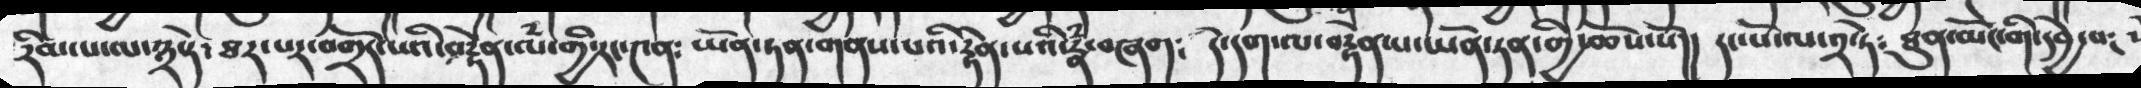རིམ་པ་ལ་༣་དེ་ཐར་པར་བགྲོད་པའི་བརྟེན་ལཾ་གྱི་རང་༤ན༴ ཡོན་ཏན་གནས་པའི་རྟེན་པའི་རྣཾ་བཞག༴  དེ་དག་ལ་བརྟེན་པ་ཡོན་ཏན་གྱི་ཆོས་སོ།།  དང་པོ་ལ་༢་ཏེ༴ ཐུན་མོང་གི་དབྱེ་བ༴
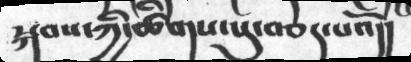སྐབས་ཀྱི་ཚིགས་སུ་བཅད་པའོ།།
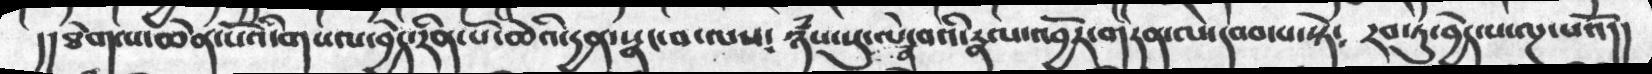།།  ཐེག་པ་ཆེན་པོའི་གསལ་བྱེད་རིན་པོ་ཆེའི་དྱན་སྣང་བ་ལས༴  ཉཾས་སུ་ལེན་བའི་རྣལ་འབྱོར་གཏན་ལ་དབབ་པ་སྟེ༴  རབ་ཏུ་བྱེད་པ་ལྔ་པའོ།།
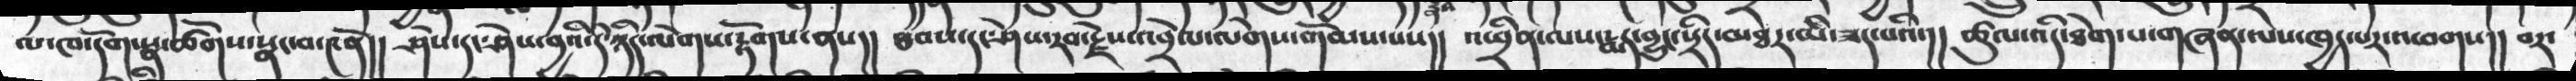ལ་ཁ་དོག་སྣ་ཚོགས་སྣང་བ་༤ནོ།།  ཤེས་དང་ཤེས་བྱའི་དེ་ཉིད་ལེགས་རྟོགས་ནས།།  ཐབས་དང་ཤེས་རབ་རྗེས་འབྲེལ་ལེགས་གོམས་པས།།  འཕྲིན་ལས་རྨད་བྱུང་སྲིད་མཐར་མི་ཟད་པའི་།།  ཚུལ་འདི་ཐེག་པ་གཞན་ལས་ཁྱད་པར་འཕགས།།  བར་
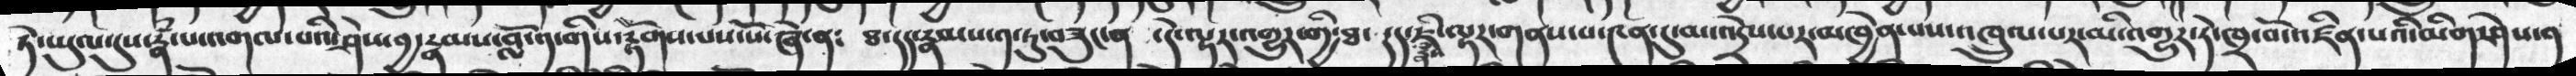ཏེ་ཡུལ་དུས་རྣཾ་པ་འགལ་པའི་ཤེས་བྱ་རྣམས་བློ་༡་གིས་རྟོགས་པས་སོ་ཞེ་ན༴  ཐ་དད་རྣམས་༡་ཏུ་བཟུང་ན ་དེ་ལྟར་འགྱུར་གྱི་ཐ་སྙད་རྣམས་ཇི་ལྟར་གནས་པ་༤ན་དུ་མ་འདྲེས་པར་མཁྱེན་པས་འཁྲུལ་པར་མི་འགྱུར་ཏེ་ཁྲ་བོ་འཛིན་པའི་མིག་ཤེས་ན
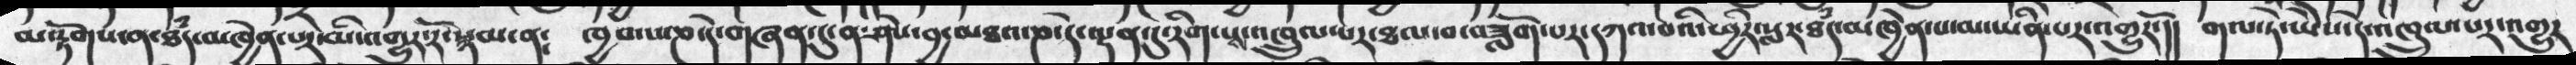མ་རྟོགས་ན་ཐཾད་མཁྱེན་པར་མི་འགྱུར་རོ་སྙམ་ན༴  ཁྱབ་པ་ཎ་དེ་གཞན་དུ་ནི་ཤེས་བྱ་མཐའ་ཎ་དེ་ལྡན་དུ་རིག་པས་འཁྲུལ་པར་ཐལ་བ་བཟླག་པར་དཀའ་བའི་ཕྱིར་སླར་ཐཾད་མཁྱེན་པ་མ་ཡིན་པར་འགྱུརོ་།།  གལ་ཏེ་ཡེེས་དེ་འཁྲུལ་པར་འགྱུར
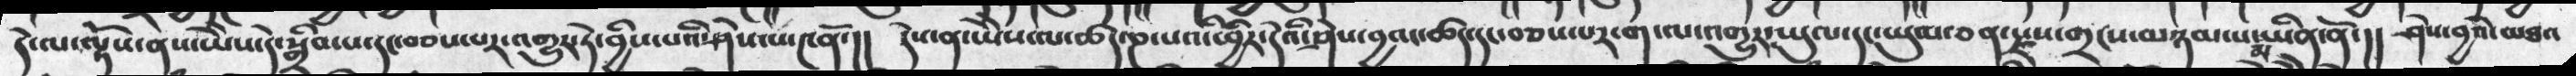དེ་ལ་ལྟོས་ནས་ཡེེས་དེ་སྒྲིབ་པ་དང་བཅས་པར་འགྱུར་ཏེ་བྱིས་པའི་ཤེས་པ་༤ནོ་།།  དེས་ན་ཡེེས་ལ་ཚད་ཎ་པའི་ཕྱིར་དེའི་ཤེས་བྱའང་ཚད་དང་བཅས་པར་ག་ལ་འགྱུར་ཡུལ་དང་ཡུལ་ཅན་རྫས་གྲངས་མཉམ་པ་མ་ཡིན་ནོ་།།  ཤེསབྱའི་མཐའ་
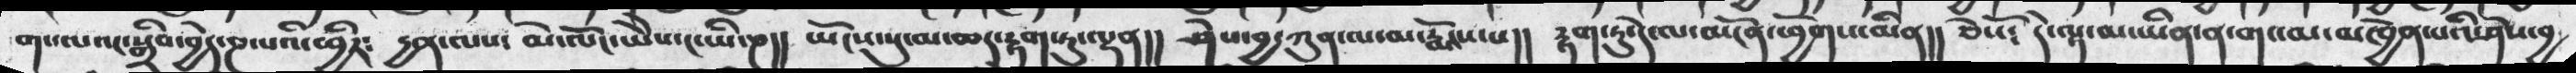གང་ལའང་སྒྲིབ་བྱེད་ཎ་པའི་ཕྱིར༴  དྱན་ལས༴   མེ་ལོང་ཡེེས་ང་ཡི་ཎ།།  ཡོངས་སུ་མ་ཆད་རྟག་ཏུ་ལྡན།།  ཤེས་བྱ་ཀུན་ལ་མ་རྨོངས་པ།། རྟག་ཏུ་དེ་ལ་མངོན་ཕྱོགས་མིན།། ཅེསོ༴  དེ་ལྟ་མ་ཡིན་ན་གང་མ་མཁྱེན་པའི་ཤེས་བྱ
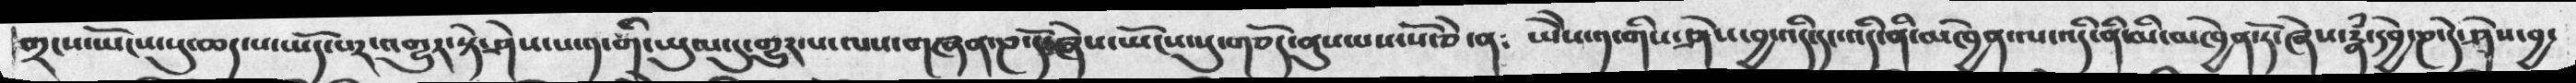གྲངས་ཡོངས་སུ་ཆད་པ་ཡོད་པར་འགྱུར་སྟེ་ཤེས་པ་༡་གི་ཡུལ་དུ་གྱུར་པ་ལས་གཞན་ཎ་དོ་ཞེས་ཡོངས་སུ་གཅོད་ནུས་པས་སོ་ཅེ་ན༴  ཡེེ་༡་གིས་ཤེས་བྱ་འདི་དང་འདི་ནི་མཁྱེན་ལ་འདི་ནི་མི་མཁྱེན་དོ་ཞེས་རྣཾ་དབྱེ་ཎ་དེ་ཤེས་བྱ་
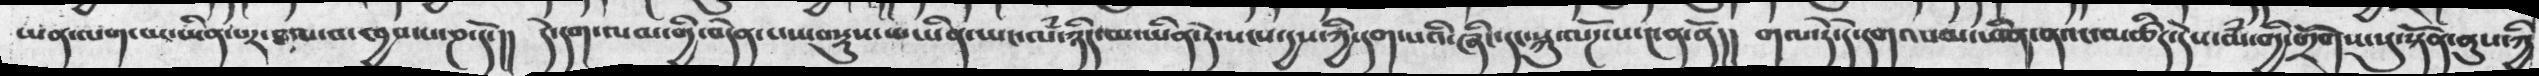ཡན་ལག་མ་ཡིན་པར་ཐལ་བ་ཁྱབ་པ་ཎ་དོ་།།   དེ་དག་ལམ་གྱི་བདེན་པས་བསྡུས་པ་ཡིན་ཡང་ལཾ་ཉིད་མ་ཡིན་དེ་སངས་དྱས་ཀྱི་དག་པའི་ཞིང་དང་སྐུ་ལོཌ་པ་༤ན་ནོ།།    གལ་ཏེ་དེ་དག་ལམ་ཡིན་ནའང་མཚིད་དེས་ལམ་གྱི་གྲོགས་སུ་སྟོན་ནུས་ཀྱི་
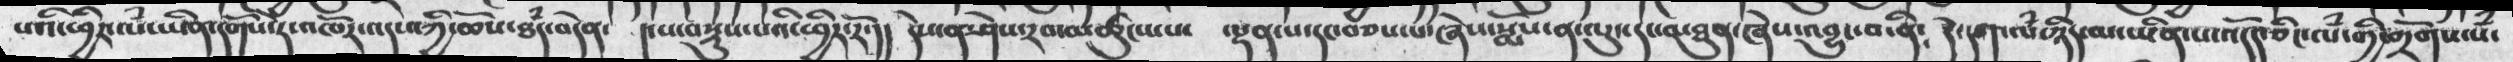པའི་ཕྱིར་ལཾ་ཡིན་དགོས་ཏེ་འཁོར་འདས་ཀྱི་ཆོས་ཐཾད་བདེན་    །་ས་བསྡུས་པའི་ཕྱིར་རོ།།   དེས་ན་ཤེས་རབ་མཚུངས་པས་  ལྡན་པ་དང་བཅས་པ་ཞེས་སྨོས་ན་ལུས་དང་མཐུན་ཞེས་འབྱུང་བ་ནི༴    དེ་དག་ལཾ་ཉིད་མ་ཡིན་པ་འདོད་ཅིང་ལཾ་གྱི་གྲོགས་སཾ་
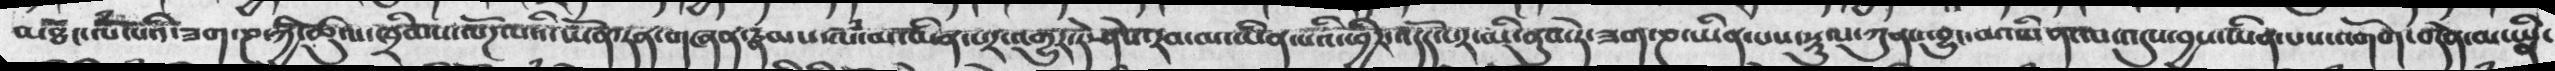མཐོང་ལཾ་པའི་ཟག་ཎ་ཀྱི་ཚུལ་ཁྲིམས་ལོཌ་པའི་ཡོན་ཏན་གཞན་རྣམས་ལཾ་མ་ཡིན་པར་འགྱུར་དེ་ཤེས་རབ་མ་ཡིན་ཕྱིར་འདོད་པར་མི་ནུས་དེ་ཟག་ཎ་ཡིན་པས་སྡུལ་ཀུན་འབྱུང་བ་ཡིན་ལ་འདུས་བྱས་ཡིན་པས་འགོག་བདེན་མ་ཡིན་
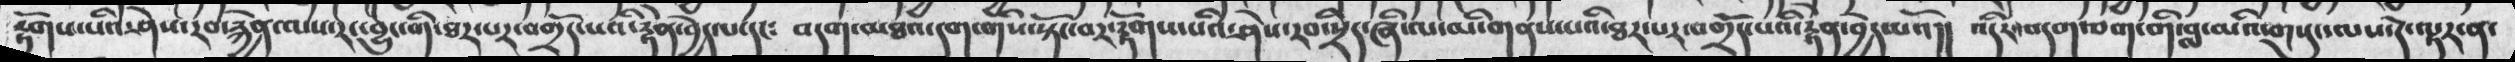རྟོགས་པའི་ཤེས་རབ་རྐྱེན་ལས་རང་བྱུང་གི་ཐར་པར་བགྲོད་པའི་རྟེན་བྱེད་པ་དང༴    བདག་མཐའ་དག་གིས་སྟོང་བར་རྟོགས་པའི་ཤེས་རབ་སྲིད་ཞི་ལ་མི་གནས་པའི་ཐར་པར་བགྲོད་པའི་རྟེན་བྱེད་པའོ།།   འདིར་བདག་ཅག་གི་བླ་མའི་གསུང་ལས་དེ་ལྟར་ན་
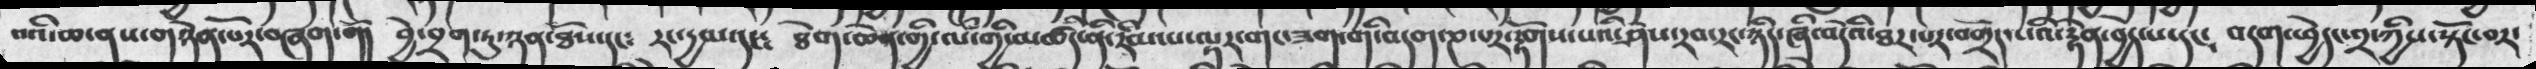པའི་ཆ་ནས་གཉེན་པོར་བཞག་གོ།  བྱེ་བྲག་ཏུ་ཉན་ཐོས་དང༴  རང་དྱལ་དང༴  ཐེག་ཆེན་གྱི་ལཾ་གྱི་མཚིད་ནི་རིམ་པ་ལྟར་གང་ཟག་གི་བདག་ཎ་པར་རྟོགས་པའི་ཤེས་རང་ཉིད་ཞི་་བདེའི་ཐར་པར་བགྲོད་པའི་རྟེན་བྱེད་པ་དང༴  བདག་ཕྱེདང་༢་ཀྱིས་སྟོང་བར་
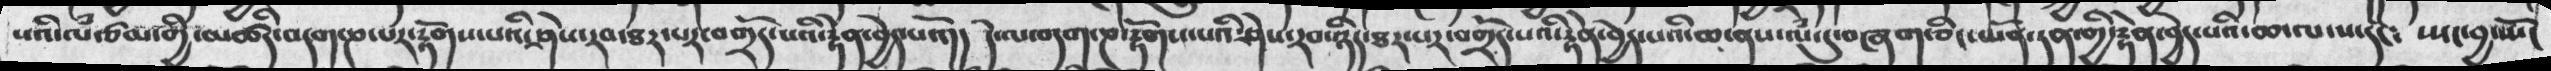པའི་ལཾ་ཙམ་གྱི་མཚིད་བདག་ཎ་པར་རྟོགས་པའི་ཤེས་རབ་ཐར་པར་བགྲོད་པའི་རྟེན་བྱེད་པའོ།། དེ་ལ་བདག་ཎ་རྟོགས་པའི་ཤེས་རབ་ཉིད་ཐར་པར་བགྲོད་པའི་རྟེན་བྱེད་པའི་ཆ་ནས་ལཾ་དུ་བཞག་ཅིང་ཡོན་ཏན་གྱི་རྟེན་བྱེད་པའི་ཆ་ལ་ས་དང༴ སྤང་བྱ་སྤོང
